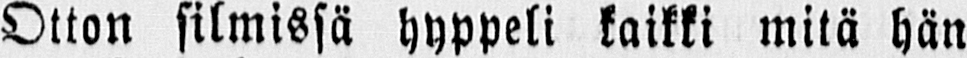Otton silmissä hyppeli kaikki mitä hän
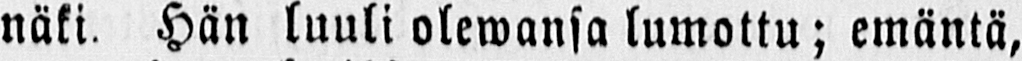näki. Hän luuli olewansa lumottu; emäntä,
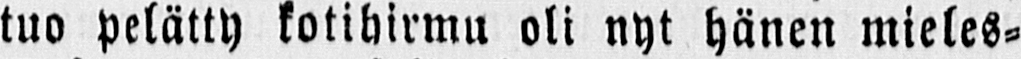tuo pelätty kotihirmu oli nyt hänen mieles-
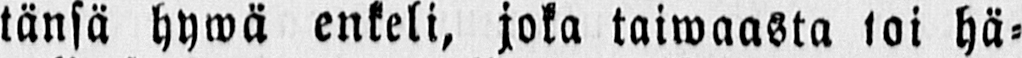tänsä hywä enkeli, joka taiwaasta toi hä-
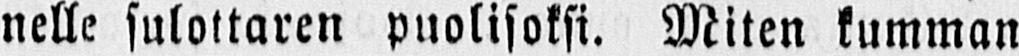nelle sulottaren puolisoksi. Miten kumman
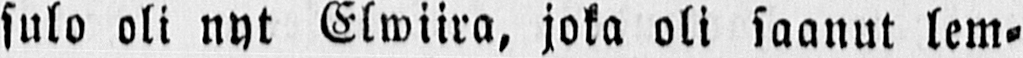sulo oli nyt Elwiira, joka oli saanut lem-
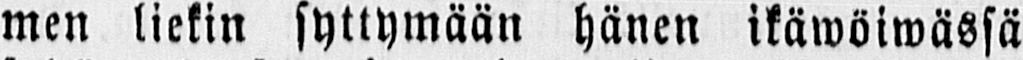men liekin syttymään hänen ikäwöiwässä
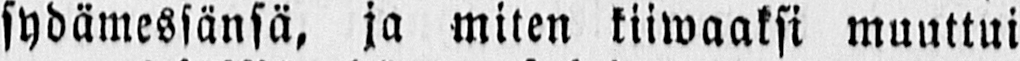sydämessänsä, ja miten kiiwaaksi muuttui
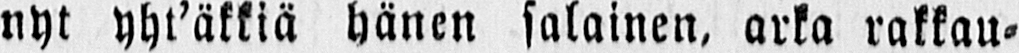nyt yht’äkkiä hänen salainen, arka rakkau-
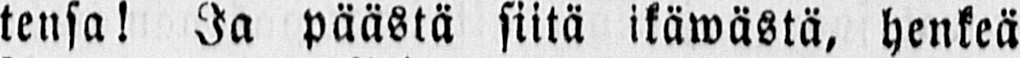tensa! Ja päästä siitä ikäwästä, henkeä
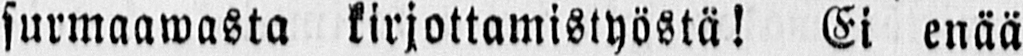surmaawasta kirjottamistyöstä! Ei enää
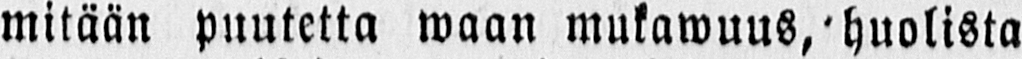mitään puutetta waan mukawuus, huolista
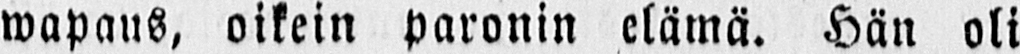wapaus, oikein paronin elämä. Hän oli
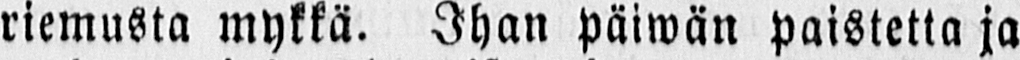riemusta mykkä. Ihan päiwän paistetta ja
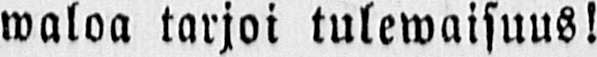waloa tarjoi tulewaisuus!
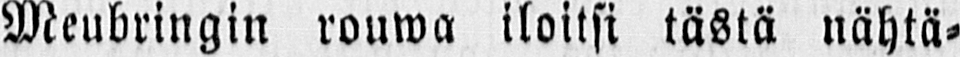Meubringin rouwa iloitsi tästä nähtä-
